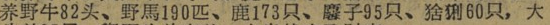养野牛82头、野馬190匹、鹿173只、麘子95只、猞猁60只，大
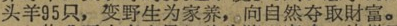头羊95只，变野生为家养，向自然夺取財富。
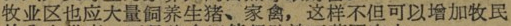牧业区也应大量飼养生猪、家禽，这样不但可以增加牧民
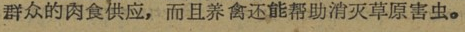群众的肉食供应，而且养禽还能帮助消灭草原害虫。
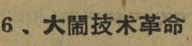6、大鬧技术革命
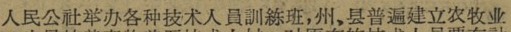人民公社举办各种技术人員訓练班，州，县普遍建立农牧业
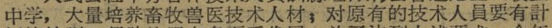中学，大量培养畜牧兽医技术人材；对原有的技术人員要有計
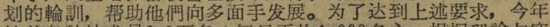划的輪訓，帮助他們向多面手发展。为了达到上述要求，今年
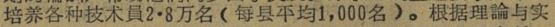培养各种技术員2・8万名（每县平均1，000名）。根据理論与实
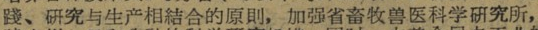踐、研究与生产相結合的原则，加强省畜牧兽医科学研究所，
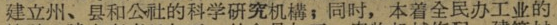建立州、县和公社的科学研究机構；同时，本着全民办工业的
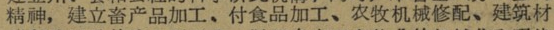精神，建立畜产品加工、付食品加工、农牧机械修配、建筑材
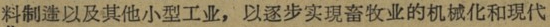料制造以及其他小型工业，以逐步实現畜牧业的机械化和現代
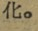化。
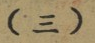（三）
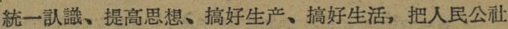統一认識、提高思想、搞好生产、搞好生活，把人民公社
